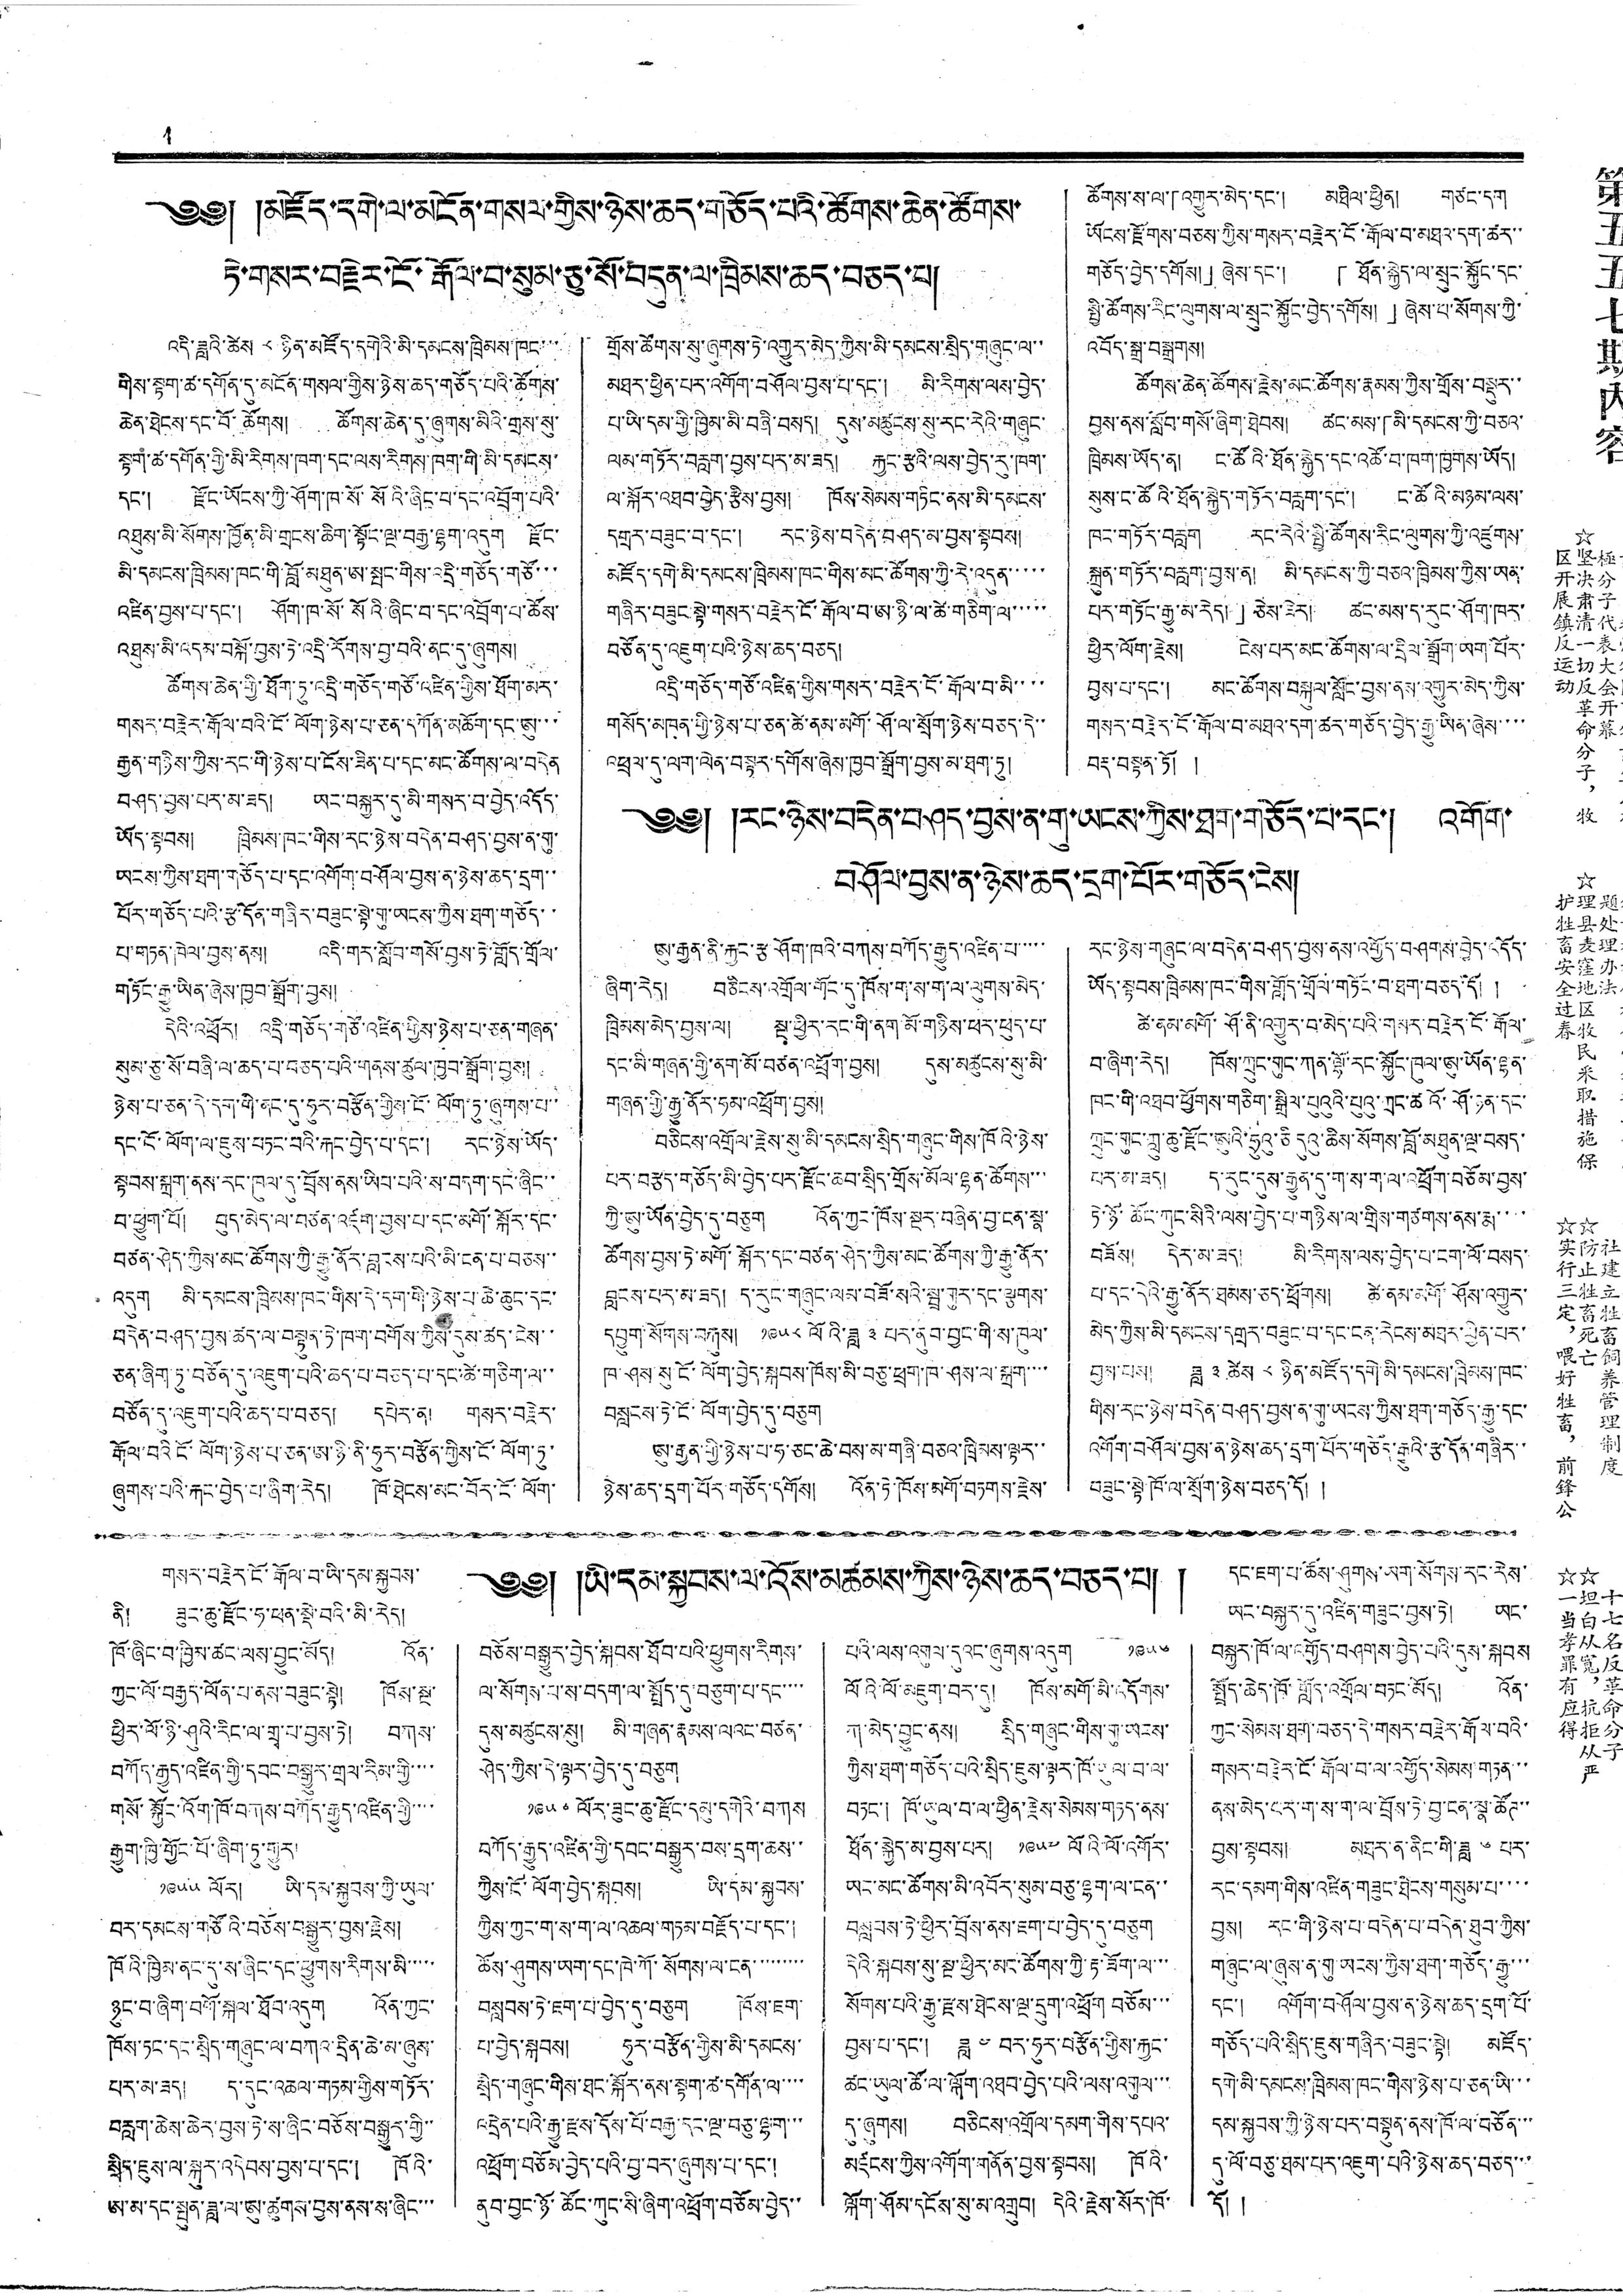4
༄༅། །མཛོད་དགེ་ལ་མངོན་གསལ་གྱིས་ཉེས་ཆད་གཅོད་པའི་ཚོགས་ཆེན་ཚོགས་
ཏེ་གསར་བརྗེར་ངོ་རྒོལ་བ་སུམ་ཅུ་སོ་བདུན་ལ་ཁྲིམས་ཆད་བཅད་པ།
འདི་ཟླའི་ཚེས ༨ ཉིན་མཛོད་དགེའི་མི་དམངས་ཁྲིམས ཁང་་་
གིས་སྟག་ཚ་དགོན་དུ་མངོན་གསལ་གྱིས་ཉེས་ཆད་གཅོད་པའི་ཚོགས་
ཆེན་ཐེངས་དང་བོ་ཚོགས། ཚོགས་ཆེན་དུ་ཞུགས་མིའི་གྲས་སུ་
སྟག་ཚ་དགོན་གྱི་མི་རིགས་ཁག་དང་ལས་རིགས་ཁག་གི་མི་དམངས་
དང་། རྫོང་ཡོངས་ཀྱི་ཤོག་ཁ་སོ་སོའི་ཞིང་པ་དང་འབྲོག་པའི་
འཐུས་མི་སོགས་ཁྱོན་མི་གྲངས་ཆིག་སྟོང་ལྔ་བརྒྱ་ལྷག་འདུག རྫོང་
མི་དམངས་ཁྲིམས་ཁང་གི་བློ་མཐུན་ཨ་སྤང་གིས་འདྲི་གཅོད་གཙོ་་་
འཛིན་བྱས་པ་དང་། ཤོག་ཁ་སོ་སོའི་ཞིང་བ་དང་འབྲོག་པ་ཚོས་
འཐུས་མི་འདམ་བསྐོ་བྱས་ཏེ་འདྲི་རོགས་བྱ་བའི་ནང་དུ་ཞུགས།
ཚོགས་ཆེན་གྱི་ཐོག་ཏུ་འདྲི་གཅོད་གཙོ་འཛིན་གྱིས་ཐོག་མར་
གསར་བརྗེར་རྒོལ་བའི་ངོ་ལོག་ཉེས་པ་ཅན་དཀོན་མཆོག་དང་ཨུ་་་
རྒྱན་གཉིས་ཀྱིས་རང་གི་ཉེས་པ་ངོས་ཟིན་པ་དང་མང་ཚོགས་ལ་བདེན
བཤད་བྱས་པར་མ་ཟད། ཡང་བསྐྱར་དུ་མི་གསར་བ་བྱེད་འདོད་
ཡོད་སྟབས། ཁྲིམས་ཁང་གིས་རང་ཉེས་བདེན་བཤད་བྱས་ན་གུ་
ཡངས་ཀྱིས་ཐག་གཅོད་པ་དང་འགོག་བཤོལ་བྱས་ན་ཉེས་ཆད་དྲག་་
པོར་གཅོད་པའི་རྩ་དོན་གཞིར་བཟུང་སྟེ་གུ་ཡངས་ཀྱིས་ཐག་གཅོད་་
པ་གཏན་ཁེལ་བྱས་ནས། འདི་གར་སློབ་གསོ་བྱས་ཏེ་གློད་གྲོལ་
གཏོང་རྒྱུ་ཡིན་ཞེས་ཁྱབ་སྒྲོག་བྱས།
དེའི་འཕྲོར། འདྲི་གཅོད་གཙོ་འཛིན་གྱིས་ཉེས་པ་ཅན་གཞན་
སུམ་ཅུ་སོ་བཞི་ལ་ཆད་པ་བཅད་པའི་གནས་ཚུལ་ཁྱབ་སྒྲོག་བྱས།
ཉེས་པ་ཅན་དེ་དག་གི་ནང་དུ་ཧུར་བརྩོན་གྱིས་ངོ་ལོག་ཏུ་ཞུགས་པ་་
དང་ངོ་ལོག་ལ་ཇུས་བཏང་བའི་རྐང་བྱེད་པ་དང་། རང་ཉེས་ཡོད་
སྟབས་སྐྲག་ནས་རང་ཁུལ་དུ་བྲོས་ནས་ཡིབ་པའི་ས་བདག་དང་ཞིང་་
བ་ཕྱུག་པོ། བུད་མེད་ལ་བཙན་འཛག་བྱས་པ་དང་མགོ་སྐོར་དང་
བཙན་ཤེད་ཀྱིས་མང་ཚོགས་ཀྱི་རྒྱུ་ནོར་བླངས་པའི་མི་ངན་པ་བཅས་་
འདུག མི་དམངས་ཁྲིམས་ཁང་གིས་དེ་དག་གི་ཉེས་པ་ཆེ་ཆུང་དང་
བདེན་བཤད་བྱས་ཚད་ལ་བསྟུན་ཏེ་ཁག་བགོས་ཀྱིས་དུས་ཚད་ངེས་་
ཅན་ཞིག་ཏུ་བཙོན་དུ་འཇུག་པའི་ཆད་པ་བཅད་པ་དང་ཚེ་གཅིག་ལ་་
བཙོན་དུ་འཇུག་པའི་ཆད་པ་བཅད། དཔེར་ན། གསར་བརྗེར་
རྒོལ་བའི ངོ་ལོག་ཉེས་པ་ཅན་ཨ་ཉི་ནི་ཧུར་བརྩོན་གྱིས་ངོ་ལོག་ཏུ་
ཞུགས་པའི་རྐང་བྱེད་པ་ཞིག་རེད། ཁོ་ཐེངས་མང་བོར་ངོ་ལོག་
གྲོས་ཚོགས་སུ་ཞུགས་ཏེ་འགྱུར་མེད་ཀྱིས་མི་དམངས་སྲིད་གཞུང་ལ་་
མཐར་ཕྱིན་པར་འགོག་བཤོལ་བྱས་པ་དང་། མི་རིགས་ལས་བྱེད་
པ་ཡི་དམ་གྱི་ཁྱིམ་མི་བཞི་བསད། དུས་མཚུངས་སུ་རང་རེའི་གཞུང་
ལམ་གཏོར་བརླག་བྱས་པར་མ་ཟད། རྐྱང་རྩའི་ལས་བྱེད་རུ་ཁག་
ལ་སྐོར་འཐབ་བྱེད་རྩིས་བྱས། ཁོས་སེམས་གཏིང་ནས་མི་དམངས་
དགྲར་བཟུང་བ་དང་། རང་ཉེས་བདེན་བཤད་མ་བྱས་སྟབས།
མཛོད་དགེ་མི་དམངས་ཁྲིམས་ཁང་གིས་མང་ཚོགས་ཀྱི་རེ་འདུན་་་་་
གཞིར་བཟུང་སྟེ་གསར་བརྗེར་ངོ་རྒོལ་བ་ཨ་ཉི་ལ་ཚེ་གཅིག་ལ་་་་་
བཙོན་དུ་འཇུག་པའི་ཉེས་ཆད་བཅད།
འདྲི་གཅོད་གཙོ་འཛིན་གྱིས་གསར་བརྗེར་ངོ་རྒོལ་བ་མི་་་་
གསོད་མཁན་གྱི་ཉེས་པ་ཅན་ཚེ་ནམ་མགོ་ཤོ་ལ་སྲོག་ཉེས་བཅད་དེ་་
འཕྲལ་དུ་ལག་ལེན་བསྟར་དགོས་ཞེས་ཁྱབ་སྒྲོག་བྱས་མ་ཐག་ཏུ།
ཚོགས་ས་ལ་「འགྱུར་མེད་དང་། མཐིལ་ཕྱིན། གཙང་དག
ཡོངས་རྫོགས་བཅས་ཀྱིས་གསར་བརྗེར་ངོ་རྒོལ་བ་མཐའ་དག་ཚར་་
གཅོད་བྱེད་དགོས།」ཞེས་དང་། 「ཐོན་སྐྱེད་ལ་སྲུང་སྐྱོང་དང་
སྤྱི་ཚོགས་རིང་ལུགས་ལ་སྲུང་སྐྱོང་བྱེད་དགོས།」ཞེས་པ་སོགས་ཀྱི་
འབོད་སྒྲ་བསྒྲགས།
ཚོགས་ཆེན་ཚོགས་རྗེས་མང་ཚོགས་རྣམས་ཀྱིས་གྲོས་བསྡུར་་
བྱས་ནས་སློབ་གསོ་ཞིག་ཐེབས། ཚང་མས་「མི་དམངས་ཀྱི་བཅའ་
ཁྲིམས་ཡོད་ན། ང་ཚོའི་ཐོན་སྐྱེད་དང་འཚོ་བ་ཁག་ཁྱགས་ཡོད།
སུས་ང་ཚོའི་ཐོན་སྐྱེད་གཏོར་བརླག་དང་། ང་ཚོའི་མཉམ་ལས་
ཁང་གཏོར་བརླག རང་རེའི་སྤྱི་ཚོགས་རིང་ལུགས་ཀྱི་འཛུགས་
སྐྲུན་གཏོར་བརླག་བྱས་ན། མི་དམངས་ཀྱི་བཅའ་ཁྲིམས་ཀྱིས་ཡན་
པར་གཏོང་རྒྱུ་མ་རེད།」ཅེས་ཟེར། ཚང་མས་ད་རུང་ཤོག་ཁར་
ཕྱིར་ལོག་རྗེས། ངེས་པར་མང་ཚོགས་ལ་དྲིལ་སྒྲོག་ཡག་པོར་
བྱས་པ་དང་། མང་ཚོགས་བསྐུལ་སློང་བྱས་ནས་འགྱུར་མེད་ཀྱིས་
གསར་བརྗེར་ངོ་རྒོལ་བ་མཐའ་དག་ཚར་གཅོད་བྱེད་རྒྱུ་ཡིན་ཞེས་་་་
བརྡ་བསྟན་ཏོ། །
༄༅། །རང་ཉེས་བདེན་བཤད་བྱས་ན་གུ་ཡངས་ཀྱིས་ཐག་གཅོད་པ་དང་། འགོག་
བཤོལ་བྱས་ན་ཉེས་ཆད་དྲག་པོར་གཅོད་ངེས།
ཨུ་རྒྱན་ནི་རྐྱང་རྩ་ཤོག་ཁའི་བཀས་བཀོད་རྒྱུད་འཛིན་པ་་་་་
ཞིག་རེད། བཅིངས་འགྲོལ་གོང་དུ་ཁོས་ག་ས་ག་ལ་ལུགས་མེད་
ཁྲིམས་མེད་བྱས་ལ། སྔ་ཕྱིར་རང་གི་ནག་མོ་གཉིས་ཕར་ཕུད་པ་
དང་མི་གཞན་གྱི་ནག་མོ་བཙན་འཕྲོག་བྱས། དུས་མཚུངས་སུ་མི་
གཞན་གྱི་རྒྱུ་ནོར་ཧམ་འཕྲོག་བྱས།
བཅིངས་འགྲོལ་རྗེས་སུ་མི་དམངས་སྲིད་གཞུང་གིས་ཁོའི་ཉེས་
པར་བརྩད་གཅོད་མི་བྱེད་པར་རྫོང་ཆབ་སྲིད་གྲོས་མོལ་ལྷན་ཚོགས་་་
ཀྱི་ཨུ་ཡོན་བྱེད་དུ་བཅུག འོན་ཀྱང་ཁོས་སྔར་བཞིན་བྱ་ངན་སྣ་
ཚོགས་བྱས་ཏེ་མགོ་སྐོར་དང་བཙན་ཤེད་ཀྱིས་མང་ཚོགས་ཀྱི་རྒྱུ་ནོར་
བླངས་པར་མ་ཟད། ད་རུང་གཞུང་ལམ་བཟོ་སའི་སྦྲ་གུར་དང་ལྕགས་
དབྱུག་སོགས་བརྐུས། ༡༩༥༨ ལོའི་ཟླ ༣ པར་ནུབ་བྱང་གི་ས་ཁུལ་
ཁ་ཤས་སུ་ངོ་ལོག་བྱེད་སྐབས་ཁོས་མི་བཅུ་ཕྲག་ཁ་ཤས་ལ་སྐྲག་་་་
བསླངས་ཏེ་ངོ་ལོག་བྱེད་དུ་བཅུག
ཨུ་རྒྱན་གྱི་ཉེས་པ་ཧ་ཅང་ཆེ་བས་མ་གཞི་བཅའ་ཁྲིམས་ལྟར་་
ཉེས་ཆད་དྲག་པོར་གཅོད་དགོས། འོན་ཏེ་ཁོས་མགོ་བཏགས་རྗེས་
རང་ཉེས་གཞུང་ལ་བདེན་བཤད་བྱས་ནས་འགྱོད་བཤགས་བྱེད་འདོད་
ཡོད་སྟབས་ཁྲིམས་ཁང་གིས་གློད་གྲོལ་གཏོང་བ་ཐག་བཅད་དོ། །
ཚེ་ནམ་མགོ་ཤོ་ནི་འགྱུར་བ་མེད་པའི་གསར་བརྗེར་ངོ་རྒོལ་
བ་ཞིག་རེད། ཁོས་ཀྲུང་གུང་ཀན་ལྷོ་རང་སྐྱོང་ཁུལ་ཨུ་ཡོན་ལྷན་
ཁང་གི་འཐབ་ཕྱོགས་གཅིག་སྒྲིལ་པུའུའི་པུའུ་ཀྲང་ཚའོ་ཤོ་ཉན་དང་
ཀྲུང་གུང་ཀླུ་ཆུ་རྫོང་ཨུའི་ཧྲུའུ་ཅི དུའུ་ཆིས་སོགས་བློ་མཐུན་ལྔ་བསད་
པར་མ་ཟད། ད་རུང་དུས་རྒྱུན་དུ་ག་ས་ག་ལ་འཕྲོག་བཅོམ་བྱས་
ཏེ་ཉོ་ཆོང་ཀུང་སིའི་ལས་བྱེད་པ་གཉིས་ལ་གྲིས་གཙགས་ནས་རྨ་་་་
བཟོས། དེར་མ་ཟད། མི་རིགས་ལས་བྱེད་པ་ངག་ལོ་བསད་
པ་དང་དེའི་རྒྱུ་ནོར་ཐམས་ཅད་ཕྲོགས། ཚེ་ནམ་མགོ་ཤོས་འགྱུར་
མེད་ཀྱིས་མི་དམངས་དགྲར་བཟུང་བ་དང་ངན་རེངས་མཐར་ཕྱིན་པར་
བྱས་པས། ཟླ ༣ ཚེས ༨ ཉིན་མཛོད་དགེ་མི་དམངས་ཁྲིམས་ཁང་
གིས་རང་ཉེས་བདེན་བཤད་བྱས་ན་གུ་ཡངས་ཀྱིས་ཐག་གཅོད་རྒྱུ་དང་
འགོག་བཤོལ་བྱས་ན་ཉེས་ཆད་དྲག་པོར་གཅོད་རྒྱུའི་རྩ་དོན་གཞིར་་
བཟུང་སྟེ་ཁོ་ལ་སྲོག་ཉེས་བཅད་དོ། །
༄༅། །ཡི་དམ་སྐྱབས་ལ་འོས་མཚམས་ཀྱིས་ཉེས་ཆད་བཅད་པ། །
གསར་བརྗེར་ངོ་རྒོལ་བ་ཡི་དམ་སྐྱབས་
ནི། ཟུང་ཆུ་རྫོང་ཧ་ཕན་སྡེ་བའི་མི་རེད།
ཁོ་ཞིང་བ་ཁྱིམ་ཚང་ལས་བྱུང་མོད། འོན་
ཀྱང་ལོ་བརྒྱད་ལོན་པ་ནས་བཟུང་སྟེ། ཁོས་སྔ་
ཕྱིར་ལོ་ཉི་ཤུའི་རིང་ལ་གྲྭ་པ་བྱས་ཏེ། བཀས་
བཀོད་རྒྱུད་འཛིན་གྱི་དབང་བསྒྱུར་གྲལ་རིམ་གྱི་་་་
གསོ་སྐྱོང་འོག་ཁོ་བཀས་བཀོད་རྒྱུད་འཛིན་གྱི་་་་
རྒྱུག་ཁྱི་གྱོང་པོ་ཞིག་ཏུ་གྱུར།
༡༩༥༥ ལོར། ཡི་དམ་སྐྱབས་ཀྱི་ཡུལ་
བར་དམངས་གཙོའི་བཅོས་བསྒྱུར་བྱས་རྗེས།
ཁོའི་ཁྱིམ་ནང་དུ་ས་ཞིང་དང་ཕྱུགས་རིགས་མི་་་་་
ཉུང་བ་ཞིག་བགོ་སྐལ་ཐོབ་འདུག འོན་ཀྱང་
ཁོས་ཏང་དང་སྲིད་གཞུང་ལ་བཀའ་དྲིན་ཆེ་མ་ཞུས་
པར་མ་ཟད། ད་དུང་འཆལ་གཏམ་གྱིས་གཏོར་
བརླག་ཆེས་ཆེར་བྱས་ཏེ་ས་ཞིང་བཅོས་བསྒྱུར་གྱི་་
སྲིད་ཇུས་ལ་སྐུར་འདེབས་བྱས་པ་དང་། ཁོའི་
ཨ་མ་དང་སྤུན་ཟླ་ལ་ཨུ་ཚུགས་བྱས་ནས་ས་ཞིང་་་
བཅོས་བསྒྱུར་བྱེད་སྐབས་ཐོབ་པའི་ཕྱུགས་རིགས་
ལ་སོགས་པ་ས་བདག་ལ་སྤྲོད་དུ་བཅུག་པ་དང་་་་
དུས་མཚུངས་སུ། མི་གཞན་རྣམས་ལའང་བཙན་
ཤེད་ཀྱིས་དེ་ལྟར་བྱེད་དུ་བཅུག
༡༩༥༦ ལོར་ཟུང་ཆུ་རྫོང་དམུ་དགེའི་བཀས
བཀོད་རྒྱུད་འཛིན་གྱི་དབང་བསྒྱུར་བས་དྲག་ཆས་་
ཀྱིས་ངོ་ལོག་བྱེད་སྐབས། ཡི་དམ་སྐྱབས་
ཀྱིས་ཀྱང་ག་ས་ག་ལ་འཆལ་གཏམ་བརྗོད་པ་དང་།
ཆོས་ཤུགས་ཡག་དང་ཁེ་ཀོ་སོགས་ལ་ངན་་་་་་་་་
བསླབས་ཏེ་ཇག་པ་བྱེད་དུ་བཅུག ཁོས་ཇག་
པ་བྱེད་སྐབས། ཧུར་བརྩོན་གྱིས་མི་དམངས་
སྲིད་གཞུང་གིས་ཐང་སྐོར་ནས་སྟག་ཚ་དགོན་ལ་་་་
འདྲེན་པའི་རྒྱུ་རྫས་དོས་པོ་བརྒྱ་དང་ལྔ་བཅུ་ལྷག་་་
འཕྲོག་བཅོམ་བྱེད་པའི་བྱ་བར་ཞུགས་པ་དང་།
ནུབ་བྱང་ཉོ་ཚོང་ཀུང་སི་ཞིག་འཕྲོག་བཅོམ་བྱེད་་
པའི་ལས་འགུལ་དུའང་ཞུགས་འདུག ༡༩༥༦
ལོའི་ལོ་མཇུག་བར་དུ། ཁོས་མགོ་མི་འདོགས་
ཀ་མེད་བྱུང་ནས། སྲིད་གཞུང་གིས་གུ་ཡངས་
ཀྱིས་ཐག་གཅོད་པའི་སྲིད་ཇུས་ལྟར་ཁོ་ཡུལ་བ་ལ་
བཏང་། ཁོ་ཡུལ་བ་ལ་ཕྱིན་རྗེས་སེམས་གཏད་ནས་
ཐོན་སྐྱེད་མ་བྱས་པར། ༡༩༥༧ ལོའི་ལོ་འགོར་
ཡང་མང་ཚོགས་མི་འབོར་སུམ་བཅུ་ལྷག་ལ་ངན་་
བསླབས་ཏེ་ཕྱིར་བྲོས་ནས་ཇག་པ་བྱེད་དུ་བཅུག
དེའི་སྐབས་སུ་སྔ་ཕྱིར་མང་ཚོགས་ཀྱི་རྟ་ཟོག་ལ་་་
སོགས་པའི་རྒྱུ་རྫས་ཐེངས་ལྔ་དྲུག་འཕྲོག་བཅོམ་་་
བྱས་པ་དང་། ཟླ ༤ བར་ཧུར་བརྩོན་གྱིས་རྐྱང་
ཚང་ཡུལ་ཚོ་ལ་ལྐོག་འཐབ་བྱེད་པའི་ལས་འགུལ་་་
དུ་ཞུགས། བཅིངས་འགྲོལ་དམག་གིས་དཔའ་
མཛངས་ཀྱིས་འགོག་གནོན་བྱས་སྟབས། ཁོའི་
ལྐོག་ཤོམ་དངོས་སུ་མ་འགྲུབ། དེའི་རྗེས་སོར་ཁོ་
དང་ཇག་པ་ཆོས་ཤུགས་ཡག་སོགས་རང་རེས་
ཡང་བསྐྱར་དུ་འཛིན་གཟུང་བྱས་ཏེ། ཡང་
བསྐྱར་ཁོ་ལ་འགྱོད་བཤགས་བྱེད་པའི་དུས་སྐབས་
སྤྲོད་ཆེད་ཁོ་གློད་འགྲོལ་བཏང་མོད། འོན་
ཀྱང་སེམས་ཐག་བཅད་དེ་གསར་བརྗེར་རྒོལ་བའི་
གསར་བརྗེར་ངོ་རྒོལ་བ་ལ་འགྱོད་སེམས་གཏན་་་
ནས་མེད་པར་ག་ས་ག་ལ་བྲོས་ཏེ་བྱ་ངན་སྣ་ཚོཊ་་
བྱས་སྟབས། མཐར་ན་ནིང་གི་ཟླ ༦ པར་
རང་དམག་གིས་འཛིན་གཟུང་ཐེངས་གསུམ་པ་་་་
བྱས། རང་གི་ཉེས་པ་བདེན་པ་བདེན་ཐུབ་ཀྱིས་
གཞུང་ལ་ཞུས་ན་གུ་ཡངས་ཀྱིས་ཐག་གཅོད་རྒྱུ་་་
དང་། འགོག་བཤོལ་བྱས་ན་ཉེས་ཆད་དྲག་པོ་
གཅོད་པའི་སྲིད་ཇུས་གཞིར་བཟུང་སྟེ། མཛོད་
དགེ་མི་དམངས་ཁྲིམས་ཁང་གིས་ཉེས་པ་ཅན་ཡི་་་
དམ་སྐྱབས་ཀྱི་ཉེས་པར་བསྟུན་ནས་ཁོ་ལ་བཙོན་་་
དུ་ལོ་བཅུ་ཐམ་པར་འཇུག་པའི་ཉེས་ཆད་བཅད་་་
དོ། །
第五五七期內容
極分子代表大会开幕
☆坚决肃清一切反革命分子，牧
区开展鎮反运动
題处理办法
☆理县麦窪地区牧民采取措施保
护牲畜安全过春
社建立牲畜飼养管理制度
☆防止牲畜死亡
☆实行三定，喂好牲畜，前鋒公
十七名反革命分子
☆坦白从寬，抗拒从严
☆一当孝罪有应得
